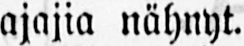ajajia nähnyt.
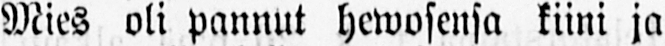Mies oli pannut hewosensa kiini ja
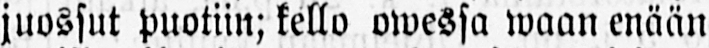juossut puotiin; kello owessa waan enään
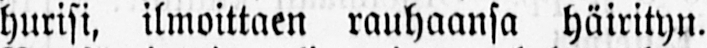hurisi, ilmoittaen rauhaansa häirityn.
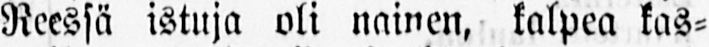Reessä istuja oli nainen, kalpea kas-
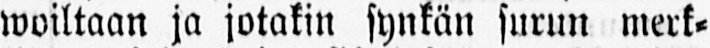woiltaan ja jotakin synkän surun merk-
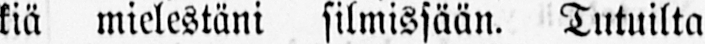kiä mielestäni silmissään. Tutuilta
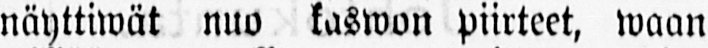näyttäwät nuo kaswon piirteet, waan
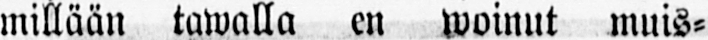millään tuwalla en woinut muis-
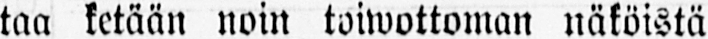taa ketään noin toiwottoman näköistä
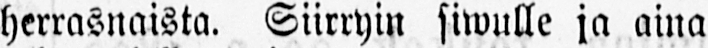herrasnaista. Siirryin siwulle ja aina
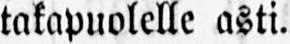takapuolelle asti.
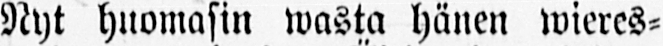Nyt huomasin wasta hänen wieres-
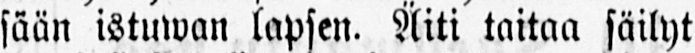sään istuwan lapsen. Äiti taitaa säilyt
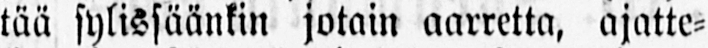tää sylissäänkin jotain aarretta, ajatte-
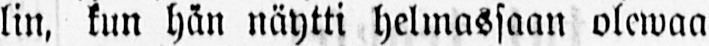lun, kun hän näytti helmassaan olewan
